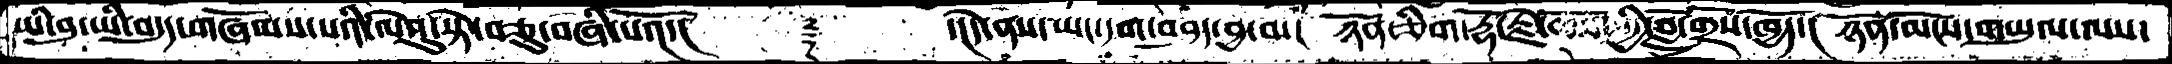ཡི་བུ་ཡི་བདུད་གཞོམས་པའི་ལེའུ་སྟེ་བཅུ་བཞི་པའོ་།  ༈   ་ངེད་ནས་ཡང་དག་བཤད་བྱ་བ་།  ཉོན་ཅིག་རྡོ་རྗེ་ཆོས་ཀྱི་བློ་གྲོས་ཁྱོད་།  ཉོན་མོངས་གཡུལ་ལས་
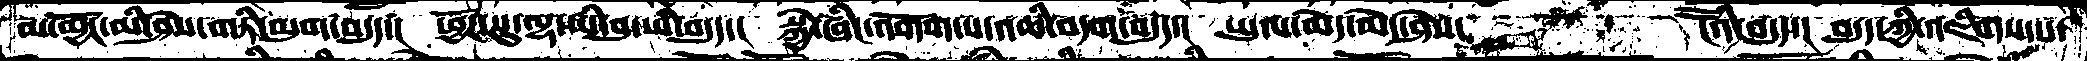མ་མྱོང་མི་ཤེས་གཏི་མུག་བདུད་།  ཕྱོཌ་སུ་ལྷ་ཡི་བུ་ཡི་བདུད་།  སྐྱེ་ཞིང་འགོག་པ་འཆི་བདག་བདུད་།  ཡུལ་མེད་མེད་ཤེས་    ངཽའི་བདུད་།  བདུད་ཀྱི་འཇིགས་པ་
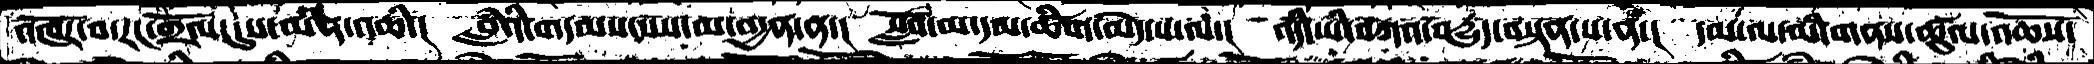འཁོར་བ་རང་གྲོལ་དུས་མིན་འཆི་།  བླཾའི་གདམས་པས་མ་བདྱན་ན་།  སློབ་མ་དམ་ཚིག་མེད་པ་ལ་།  འདི་ཡི་བཀའ་བདྱུད་བསྟན་པ་ནི་།  དམ་ལ་མི་གནས་ཚུལ་འཆོས་
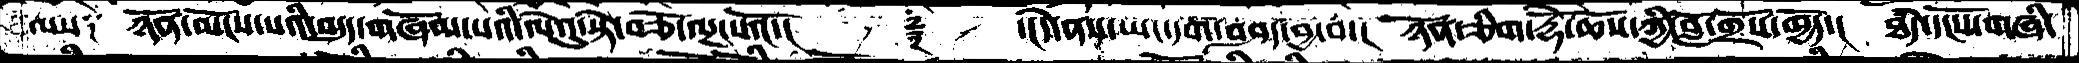ལས༑  ཉོན་མོངས་པའི་བདུད་གཞོམ་པའི་ལེའུ་སྟེ་བཅོ་ལྔ་པའོ་།     ༈    ་།དེ་ནས་ཡང་དག་བཤད་བྱ་བ་།  ཉོན་ཅིག་རྡོེ་ཆོས་ཀྱི་བློ་གྲོས་ཁྱོད་།  ཐཾད་དངོས་གཞི་
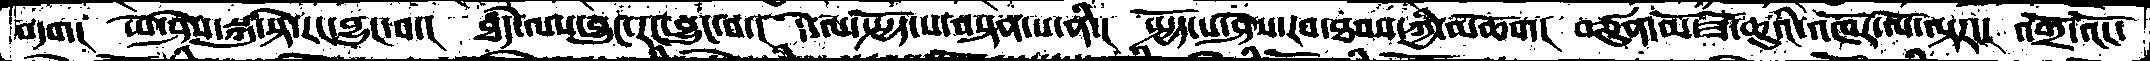བདག།  ཡེ་ཤེས་སྐུ་སྟེ་རང་བྱུང་བ་།  ཐཾད་ལས་བྱུང་རང་བྱུང་བ་།  དེ་ལ་སྤྱོད་པ་བསྟན་པ་ནི་།  སྤྱོད་པ་ཤེས་རབ་ཐབས་ཀྱི་མཆོག།  བཙུན་མོ་ཟོ་ཆུའི་འཁོར་ལོ་ལྟར་།  འགྲོ་འོང་
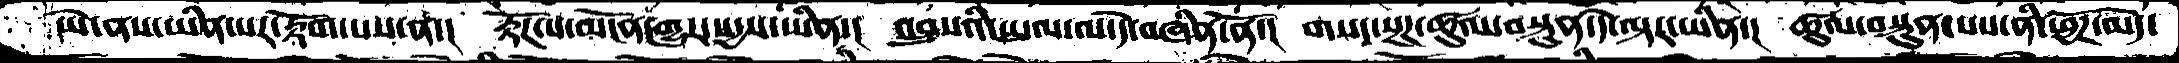ཡེ་ནས་ཡིན་པར་རྟོག་པས་ན་།   རྟོཌ་པ་མངོན་གྱུར་སདྱས་ཡིན་།  འབྲུསའི་ཡུལ་ལ་དེ་བཞིན་ནོ་།  གསང་སྔཌ་ཚུལ་བསྟུན་དེ་ལྟར་ཡིན་།  ཚུལ་བསྟུན་པས་ནི་ཕྱོཌ་མེད་
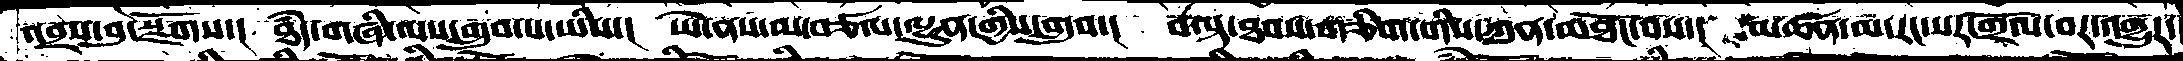འབྲད་བུ་སྫོགས་།  ཐཾད་གཞི་ལས་གྲུབ་པ་ཡིས་།  ཡེ་ནས་མ་ཙལ་ལྷུན་གྱིས་གྲུབ་།  བལྟ་ཐབས་གཅིག་གིས་ཀུན་མཐོང་ནས་།  མཚན་མ་རང་སར་གྲོལ་བར་འགྱུར་
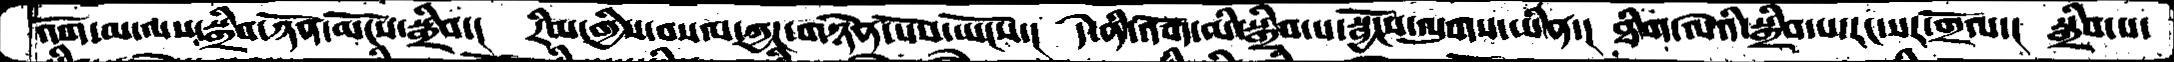འོག་མ་ལས་སྒྲིབ་ཉོན་མོངས་སྒྲིབ་།  རིམ་གྱིས་བསལ་ཀྱང་གཉེན་པོས་ཡོངས་།  དེ་ནི་འོག་མི་སྒྲིབ་པ་སྦྱོངས་ལུགས་ཡིན་།  ཐིག་ལེའི་སྒྲིབ་པ་རང་སར་གྲོལ་།  སྒྲིབ་པ་
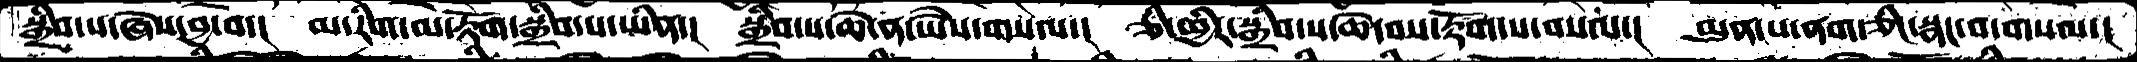སྒྲིབ་པ་ཞེས་བྱ་བ་། མ་རིག་མ་རྟོག་སྒྲིབ་པ་ཡིན་།  སྒྲིབ་པ་ཆེ་ན་ཡཻས་གསལ་། ཅི་ཕྱིར་སྒྲིབ་པ་ཆེ་བས་རྟོག་པ་བསལ་། མུན་པ་ནག་ཅིང་སྣང་བ་གསལ་།
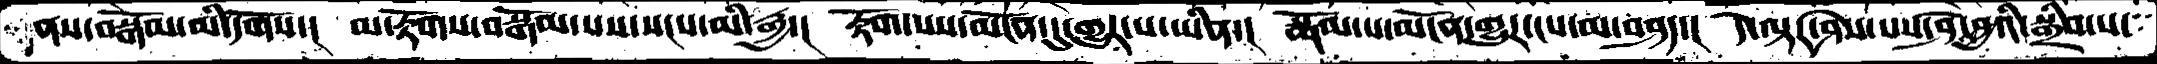ནས་བསྒོམ་མི་དགོས་།  མ་རྟོགས་བསྒོམ་པས་སངས་མི་རྒྱ་།  རྟོག་པས་མངོན་དུ་གྱུར་པ་ཡིན་།  སྒོམ་པ་མངོན་གྱུར་ངས་མ་བཤད་།  དེ་ལྟར་ཤེས་པས་ཤེ་བླུའི་སྒྲིབ་པ་
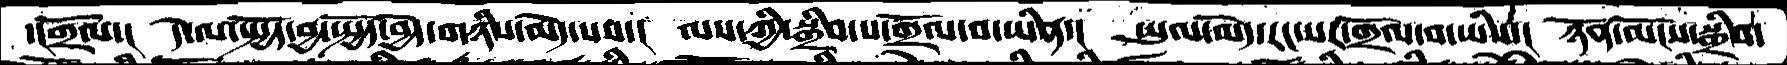་།གྲོལ་།  དེ་ལ་སྤྱོད་བྱ་སྤྱོད་བྱེད་གཉིས་མེད་པས་།  ལས་ཀྱི་སྒྲིབ་པ་གྲོལ་བ་ཡིན་།  ཡུལ་མེད་རང་སར་གྲོལ་བ་ཡིས་།  ཉོན་མོངས་སྒྲིབ་
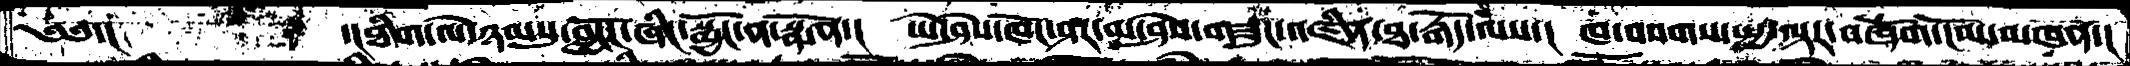༄༅་།     ་།ཐིག་ལེ་ཉམསུ་བླངོར་ཞིང་སྨྱོང་ན་སྨོན་།   ཡེ་ཤེས་ཁོང་ཤར་མ་ཤེས་གཟུང་འཛིན་ཐ་རྒོད་ལས་།  ཁ་བསགས་སྤྱ་ལྟར་བཞོག་ངོམ་མཁན་།
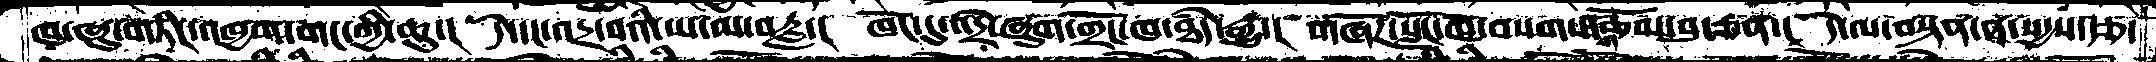ཁ་ཞུ་གཏིང་འཁྱག་གང་གྱི་ཆུ་།  དེ་དང་འདྲ་བའི་ཡ་མ་བརླ་།  ཁོང་དུ་འདྲེ་ཞུག་གྲོང་ཁ་ཐཾད་རྒྱུ་།  གཞོཌ་སློང་ཁོ་བསགས་ཚོམ་བུ་ཅན་།  དེ་ལ་བསྟན་ན་སདྱས་རྩ་
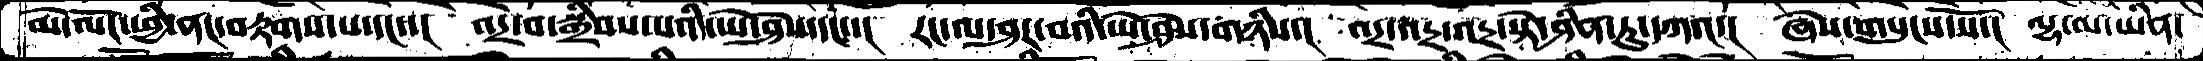མེ་ལོང་ཕྱི་ནང་བརྟགས་པ་དང་་།  འདྲ་བ་སྒྲིབས་པའི་ཡེ་ཤེས་དང་་།  རང་ལ་ཤར་བའི་ཡེ་ཤེས་གཉིས་།  འདྲ་འདྲ་འདྲ་སྟེ་ཤིན་ཏུ་དཀའ་།  ཞེས་གསུངས་སོ་།  ལྷ་མ་ཡིན་
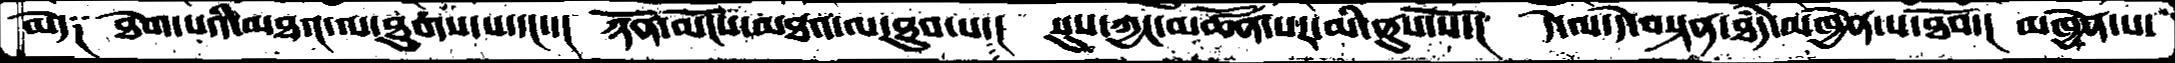མེད༑  ཐེག་པའི་མཐའ་ལ་ཐུགས་པ་དང་་།  ཉོན་མོངས་མཐའ་ལ་ཐུབ་པ་།  སུས་ཀྱང་མཚོན་པར་མི་ནུས་སོ་།  དེ་ལ་དེ་བསྟན་ཐཾད་མཁྱེན་པ་ཐོབ་།  མཁྱེན་པ་
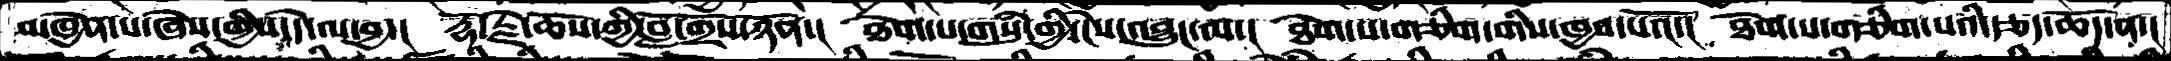མཁྱེན་པ་ཞེས་གྱིས་དེ་ལ་བྱ་།   རྡོ་རྗེ་ཆོས་ཀྱི་བློ་གྲོས་ཉོན་།  ཐེག་པ་གསུཾ་གྱི་ངེས་འབྱུང་ལ་།  ཐེག་པ་གཅིག་གིས་ཁྱབ་པའོ་།  ཐེག་པ་གཅིག་པའི་རྩད་ཆོད་ན་།
